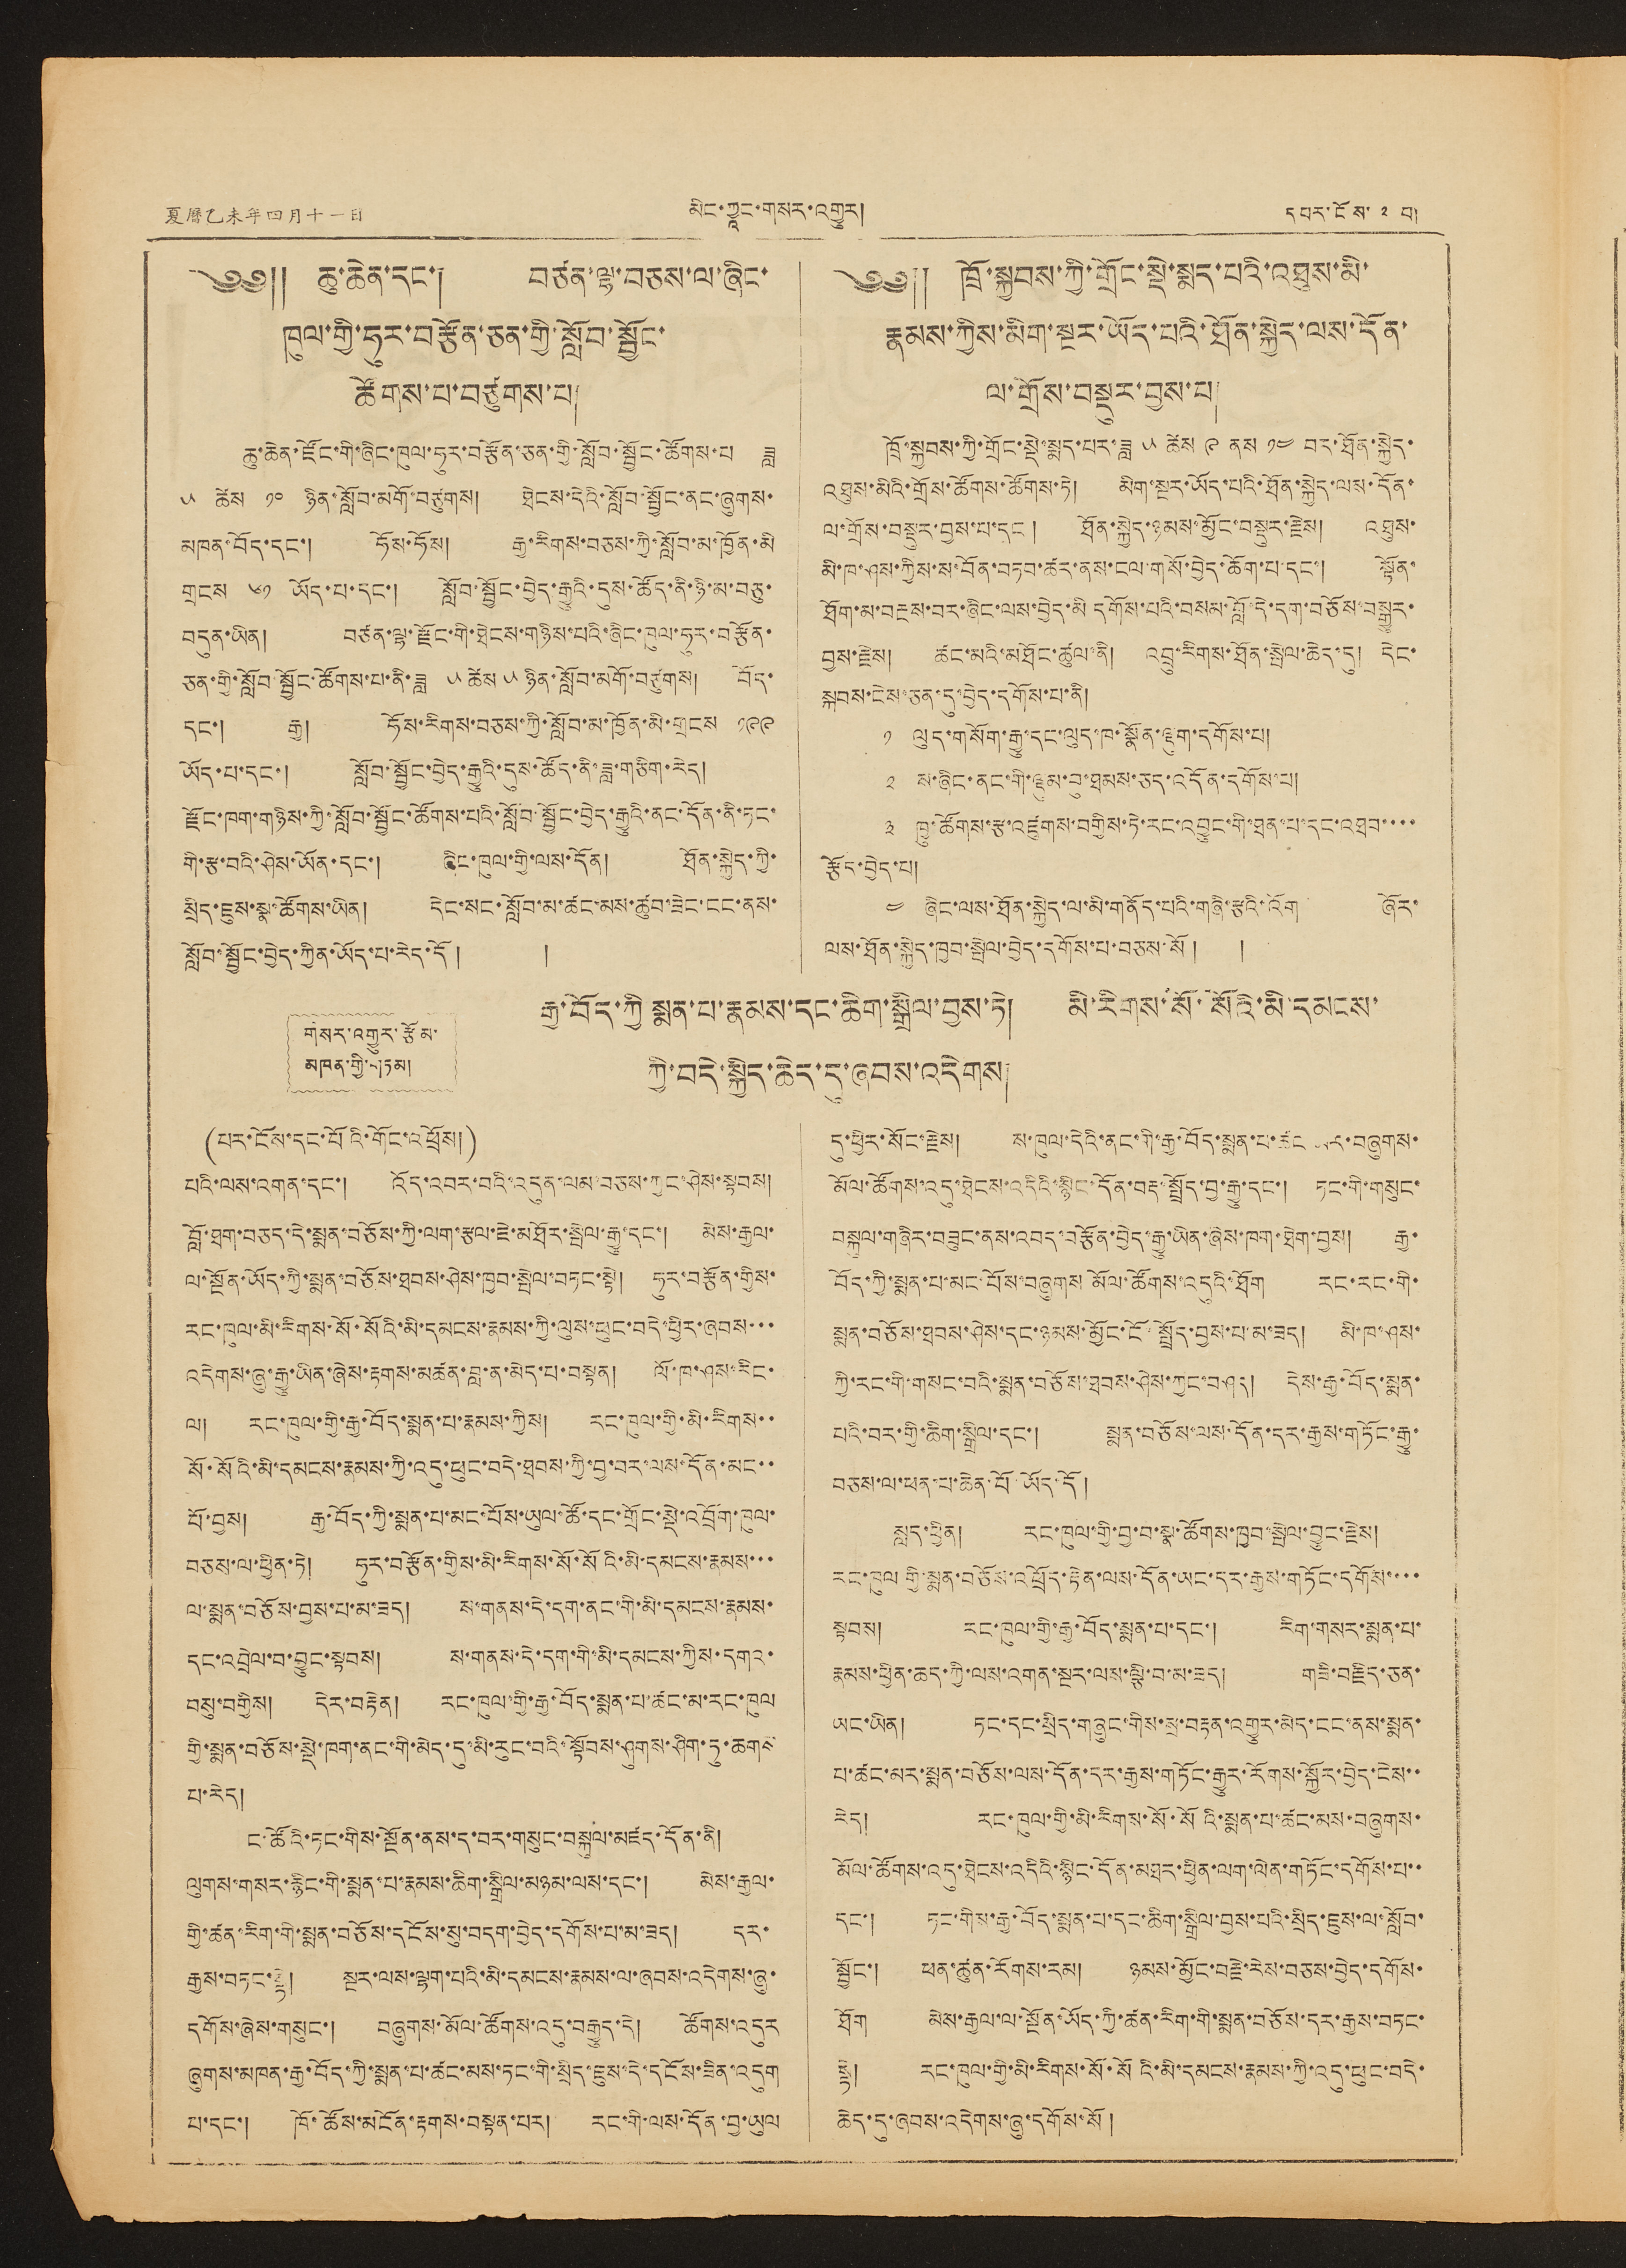夏曆乙未年四月十一日 མིང་ཀྱཱང་གསར་འགྱུར། དཔར་ངོས་ ༢ བ།
༄༅༎ ཆུ་ཆེན་དང་། བཙན་ལྷ་བཅས་ལ་ཞིང་
ཁུལ་གྱི་ཧུར་བརྩོན་ཅན་གྱི་སློབ་སྦྱོང་
ཚོགས་པ་བཙུགས་པ།
ཆུ་ཆེན་ཛོང་གི་ཞིང་ཁུལ་ཧུར་བརྩོན་ཅན་གྱི་སློབ་སྦྱོང་ཚོགས་པ ཟླ
༥ ཚེས ༡༠ ཉིན་སློབ་མགོ་བཙུགས། ཐེངས་དེའི་སློབ་སྦྱོང་ནང་ཞུགས་
མཁན་བོད་དང་། ཧོས་ཧོས། རྒྱ་རིགས་བཅས་ཀྱི་སློབ་མ་ཁྱོན་མི
གྲངས ༦༡ ཡོད་པ་དང་། སློབ་སྦྱོང་བྱེད་རྒྱུའི་དུས་ཚོད་ནི་ཉི་མ་བཅུ་
བདུན་ཡིན། བཙན་ལྷ་རྫོང་གི་ཐེངས་གཉིས་པའི་ཞིང་ཁུལ་ཧུར་བརྩོན་
ཅན་གྱི་སློབ་སྦྱོང་ཚོགས་པ་ནི་ཟླ ༥ ཚེས ༥ ཉིན་སློབ་མགོ་བཙུགས། བོད་
དང་། རྒྱ། ཧོས་རིགས་བཅས་ཀྱི་སློབ་མ་ཁྱོན་མི་གྲངས ༡༩༩
ཡོད་པ་དང་། སློབ་སྦྱོང་བྱེད་རྒྱུའི་དུས་ཚོད་ནི་ཟླ་གཅིག་རེད།
རྫོང་ཁག་གཉིས་ཀྱི་སློབ་སྦྱོང་ཚོགས་པའི་སློབ་སྦྱོང་བྱེད་རྒྱུའི་ནང་དོན་ནི་ཏང་
གི་རྩ་བའི་ཤེས་ཡོན་དང་། ཞིང་ཁུལ་གྱི་ལས་དོན། ཐོན་སྐྱེད་ཀྱི་
སྲིད་ཇུས་སྣ་ཚོགས་ཡིན། དེང་སང་སློབ་མ་ཚང་མས་ཚུབ་ཟེང་ངང་ནས་
སློབ་སྦྱོང་བྱེད་ཀྱིན་ཡོད་པ་རེད་དོ། །
༄༅༎ ཁྲོ་སྐྱབས་ཀྱི་གྲོང་སྡེ་སྨད་པའི་འཐུས་མི་
རྣམས་ཀྱིས་མིག་སྔར་ཡོད་པའི་ཐོན་སྐྱེད་ལས་དོན་
ལ་གྲོས་བསྡུར་བྱས་པ།
ཁྲོ་སྐྱབས་ཀྱི་གྲོང་སྡེ་སྨད་པར་ཟླ ༥ ཚེས ༩ ནས ༡༤ བར་ཐོན་སྐྱེད་
འཐུས་མིའི་གྲོས་ཚོགས་ཚོགས་ཏེ། མིག་སྔར་ཡོད་པའི་ཐོན་སྐྱེད་ལས་དོན་
ལ་གྲོས་བསྡུར་བྱས་པ་དང ། ཐོན་སྐྱེད་ཉམས་མྱོང་བསྡུར་རྗེས། འཐུས་
མི་ཁ་ཤས་ཀྱིས་ས་བོན་བཏབ་ཚར་ནས་ངལ་གསོ་བྱེད་ཆོག་པ་དང་། སྟོན་
ཐོག་མ་བརྔས་བར་ཞིང་ལས་བྱེད་མི དགོས་པའི་བསམ་བློ་དེ་དག་བཅོས་བསྒྱུར་
བྱས་རྗེས། ཚང་མའི་མཐོན་ཚུལ་ནི། འབྲུ་རིགས་ཐོན་སྤེལ་ཆེད་དུ། དེང་
སྐབས་ངེས་ཅན་དུ་བྱེད་དགོས་པ་ནི།
༡ ལུད་གསོག་རྒྱུ་དང་ལུད་ཁ་སྣོན་ལྡུག་དགོས་པ།
༢ ས་ཞིང་ནང་གི་ལྡུམ་བུ་ཐམས་ཅད་འདོན་དགོས་པ།
༣ ཁྱུ་ཚོགས་རྩ་འཛུགས་བགྱིས་ཏེ་རང་འབྱུང་གི་ཐན་པ་དང་འཐབ་་་་
རྩོད་བྱེད་པ།
༤ ཞིང་ལས་ཐོན་སྐྱེད་ལ་མི་གནོད་པའི་གཞི་རྩའི་འོག ཞོར་
ལས་ཐོན་སྐྱེད་ཁྱབ་སྤེལ་བྱེད་དགོས་པ་བཅས་སོ། །
གསར་འགྱུར་རྩོམ་
མཁན་གྱི་གཏམ།
རྒྱ་བོད་ཀྱི སྨན་པ་རྣམས་དང་ཆིག་སྒྲིལ་བྱས་ཏེ། མི་རིགས་སོ་སོའི་མི་དམངས་
ཀྱི་བདེ་སྐྱིད་ཆེད་དུ་ཞབས་འདེགས།
(པར་ངོས་དང་པོའི་གོང་འཕྲོས།)
པའི་ལས་འགན་དང་། འོད་འབར་བའི་འདུན་ལམ་བཅས་ཀྱང་ཤེས་སྟབས།
བློ་ཐག་བཅད་དེ་སྨན་བཅོས་ཀྱི་ལག་རྩལ་ཇེ་མཐོར་སྤེལ་རྒྱུ་དང་། མེས་རྒྱལ་
ལ་སྔོན་ཡོད་ཀྱི་སྨན་བཅོས་ཐབས་ཤེས་ཁྱབ་སྤེལ་བཏང་སྟེ། ཧུར་བརྩོན་གྱིས་
རང་ཁུལ་མི་རིགས་སོ་སོའི་མི་དམངས་རྣམས་ཀྱི་ལུས་ཕུང་བདེ་ཕྱིར་ཞབས་་་
འདེགས་ཞུ་རྒྱུ་ཡིན་ཞེས་རྟགས་མཚན་བླ་ན་མེད་པ་བསྟན། ལོ་ཁ་ཤས་རིང་
ལ། རང་ཁུལ་གྱི་རྒྱ་བོད་སྨན་པ་རྣམས་ཀྱིས། རང་ཁུལ་གྱི་མི་རིགས་་
སོ་སོའི་མི་དམངས་རྣམས་ཀྱི་འདུ་ཕུང་བདེ་ཐབས་ཀྱི་བྱ་བར་ལས་དོན་མང་་
པོ་བྱས། རྒྱ་བོད་ཀྱི་སྨན་པ་མང་པོས་ཡུལ་ཚོ་དང་གྲོང་སྡེ་འབྲོག་ཁུལ་
བཅས་ལ་ཕྱིན་ཏེ། ཧུར་བརྩོན་གྱིས་མི་རིགས་སོ་སོའི་མི་དམངས་རྣམས་་་
ལ་སྨན་བཅོས་བྱས་པ་མ་ཟད། ས་གནས་དེ་དག་ནང་གི་མི་དམངས་རྣམས་
དང་འབྲེལ་བ་བྱུང་སྟབས། ས་གནས་དེ་དག་གི་མི་དམངས་ཀྱིས་དགའ་
བསུ་བགྱིས། དེར་བརྟེན། རང་ཁུལ་གྱི་རྒྱ་བོད་སྨན་པ་ཚང་མ་རང་ཁུལ
གྱི་སྨན་བཅོས་སྡེ་ཁག་ནང་གི་མེད་དུ་མི་རུང་བའི་སྟོབས་ཤུགས་ཤིག་ཏུ་ཆགས
པ་རེད།
ང་ཚོའི་ཏང་གིས་སྔོན་ནས་ད་བར་གསུང་བསྐུལ་མཛད་དོན་ནི།
ལུགས་གསར་རྙིང་གི་སྨན་པ་རྣམས་ཆིག་སྒྲིལ་མཉམ་ལས་དང་། མེས་རྒྱལ་
གྱི་ཚན་རིག་གི་སྨན་བཅོས་དངོས་སུ་བདག་བྱེད་དགོས་པ་མ་ཟད། དར་
རྒྱས་བཏང་སྟེ། སྔར་ལས་ལྷག་པའི་མི་དམངས་རྣམས་ལ་ཞབས་འདེགས་ཞུ་
དགོས་ཞེས་གསུང་། བཞུགས་མོལ་ཚོགས་འདུ་བརྒྱུད་དེ། ཚོགས་འདུར
ཞུགས་མཁན་རྒྱ་བོད་ཀྱི་སྨན་པ་ཚང་མས་ཏང་གི་སྲིད་ཇུས་དེ་དངོས་ཟིན་འདུག
པ་དང་། ཁོ་ཚོས་མངོན་རྟགས་བསྟན་པར། རང་གི་ལས་དོན་བྱ་ཡུལ
དུ་ཕྱིར་སོང་རྗེས། ས་ཁུལ་དེའི་ནང་གི་རྒྱ་བོད་སྨན་པ་ཚང་མར་བཞུགས་
མོལ་ཚོགས་འདུ་ཐེངས་འདིའི་སྙིང་དོན་བརྡ་སྤྲོད་བྱ་རྒྱུ་དང་། ཏང་གི་གསུང་
བསྐུལ་གཞིར་བཟུང་ནས་འབད་བརྩོན་བྱེད་རྒྱུ་ཡིན་ཞེས་ཁག་ཐེག་བྱས། རྒྱ་
བོད་ཀྱི་སྨན་པ་མང་པོས་བཞུགས མོལ་ཚོགས་འདུའི་ཐོག རང་རང་གི་
སྨན་བཅོས་ཐབས་ཤེས་དང་ཉམས་མྱོང་ངོ་སྤྲོད་བྱས་པ་མ་ཟད། མི་ཁ་ཤས་
ཀྱི་རང་གི་གསང་བའི་སྨན་བཅོས་ཐབས་ཤེས་ཀྱང་བཤད། དེས་རྒྱ་བོད་སྨན་
པའི་བར་གྱི་ཆིག་སྒྲིལ་དང་། སྨན་བཅོས་ལས་དོན་དར་རྒྱས་གཏོང་རྒྱུ་
བཅས་ལ་ཕན་པ་ཆེན་པོ་ཡོད་དོ།
སླད་ཕྱིན། རང་ཁུལ་གྱི་བྱ་བ་སྣ་ཚོགས་ཁྱབ་སྤེལ་བྱུང་རྗེས།
རང་ཁུལ གྱི་སྨན་བཅོས་འཕྲོད་རྟེན་ལས་དོན་ཡང་དར་རྒྱས་གཏོང་དགོས་་་་
སྟབས། རང་ཁུལ་གྱི་རྒྱ་བོད་སྨན་པ་དང་། རིག་གསར་སྨན་པ་
རྣམས་ཕྱིན་ཆད་ཀྱི་ལས་འགན་སྔར་ལས་ལྕི་བ་མ་ཟད། གཟི་བརྗིད་ཅན་
ཡང་ཡིན། ཏང་དང་སྲིད་གཞུང་གིས་སྲ་བརྟན་འགྱུར་མེད་ངང་ནས་སྨན་
པ་ཚང་མར་སྨན་བཅོས་ལས་དོན་དར་རྒྱས་གཏོང་རྒྱུར་རོགས་སྐྱོར་བྱེད་ངེས་་
རེད། རང་ཁུལ་གྱི་མི་རིགས་སོ་སོའི་སྨན་པ་ཚང་མས་བཞུགས་
མོལ་ཚོགས་འདུ་ཐེངས་འདིའི་སྙིང་དོན་མཐར་ཕྱིན་ལག་ལེན་གཏོང་དགོས་པ་་
དང་། ཏང་གིས་རྒྱ་བོད་སྨན་པ་དང་ཆིག་སྒྲིལ་བྱས་པའི་སྲིད་ཇུས་ལ་སློབ་
སྦྱོང་། ཕན་ཚུན་རིགས་རམ། ཉམས་མྱོང་བརྗེ་རེས་བཅས་བྱེད་དགོས་
ཐོག མེས་རྒྱལ་ལ་སྔོན་ཡོད་ཀྱི་ཚན་རིག་གི་སྨན་བཅོས་དར་རྒྱས་བཏང་
སྟེ། རང་ཁུལ་གྱི་མི་རིགས་སོ་སོའི་མི་དམངས་རྣམས་ཀྱི་འདུ་ཕུང་བདེ་
ཆེད་དུ་ཞབས་བདེགས་ཞུ་དགོས་སོ །
